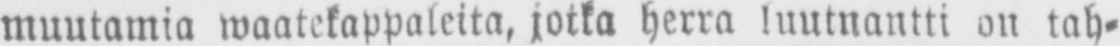muutamia waatekappaleita, jotka herra luutnantti on tah-
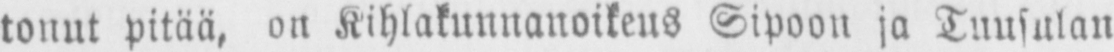tonut pitää, on Kihlakunnanoikeus Sipoon ja Tuusulan
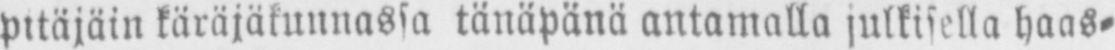pitäjäin käräjäkunnassa tänäpänä antamalla julkisella haas-
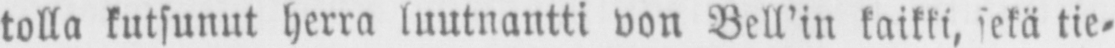tolla kutsunut herra luutnantti von Bell'in kaikki, sekä tie-
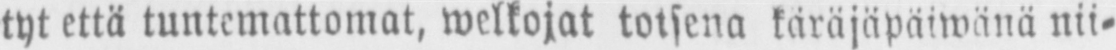tyt että tuntemattomat, welkojat toisena käräjäpäiwänä nii-
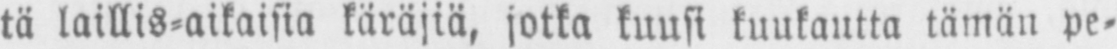tä laillis-aikaisia käräjiä, jotka kuusi kuukautta tämän pe-
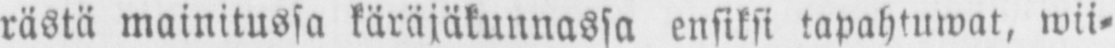rästä mainitussa käräjäkunnassa ensiksi tapahtuwat, wii-
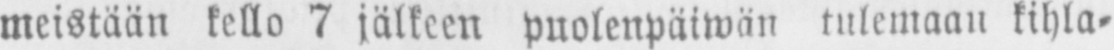meistään kello 7 jälkeen puolenpäiwän tulemaan kihla-
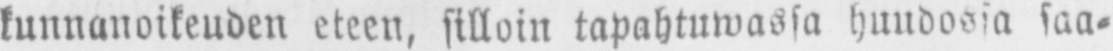kunnanoikeuden eteen, silloin tapahtuwassa huudossa saa-
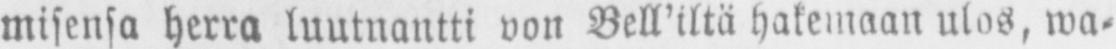misensa herra luutnantti von Bell'iltä hakemaan ulos, wa-
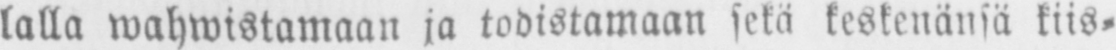lalla wahwistamaan ja todistamaan sekä keskenänsä kiis-
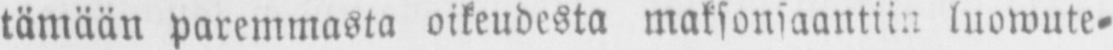tämään paremmasta oikeudesta maksonsaantiin luowute-
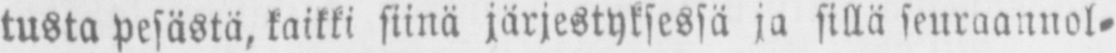tusta pesästä, kaikki siinä järjestyksessä ja sillä seuraannol-
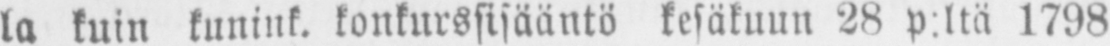la kuin kunink. konkurssisääntö kesäkuun 28 p:ltä 1798
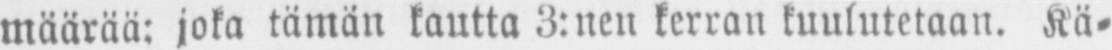määrää: joka tämän kautta 3:nen kerran kuulutetaan. Kä-
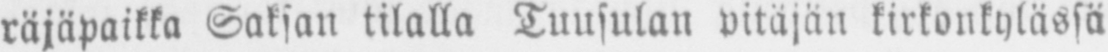räjäpaikka Saksan tilalla Tuusulan pitäjän kirkonkylässä
